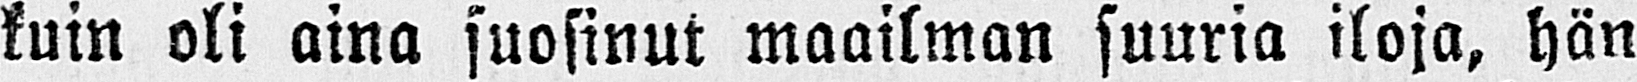kuin oli aina suosinut maailman suuria iloja, hän
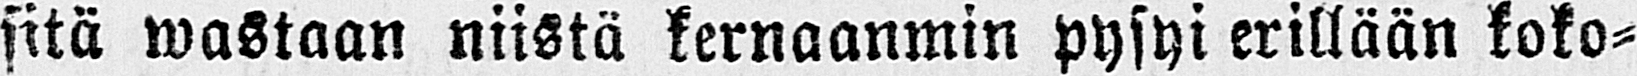sitä wastaan niistä kernaanmin pysyi erillään koko-
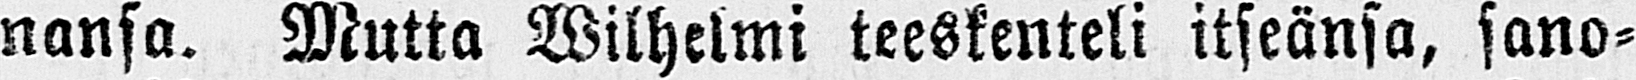nansa. Mutta Wilhelmi teeskenteli itseänsä, sano-
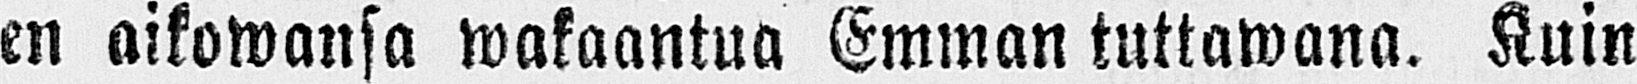en aikowansa wakaantua Emman tuttawana. Kuin
